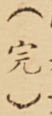（完）
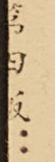第四版：
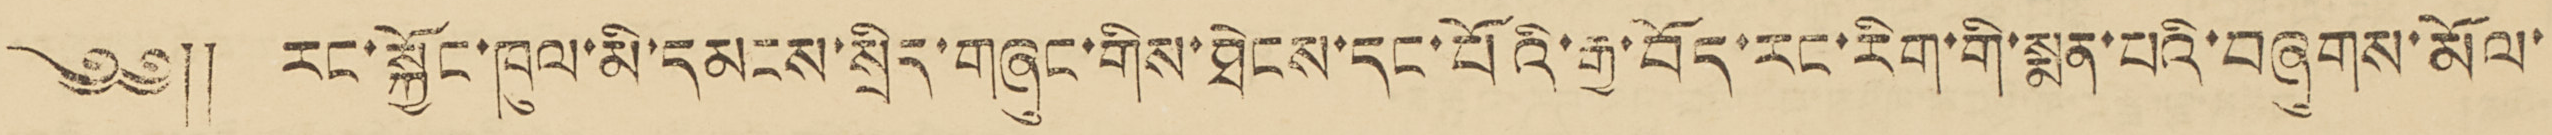༄༅༎ རང་སྐྱོང་ཁུལ་མི་དམངས་སྲིད་གཞུང་གིས་ཐེངས་དང་པོའི་རྒྱ་བོད་རང་རིག་གི་སྨན་པའི་བཞུགས་མོལ་
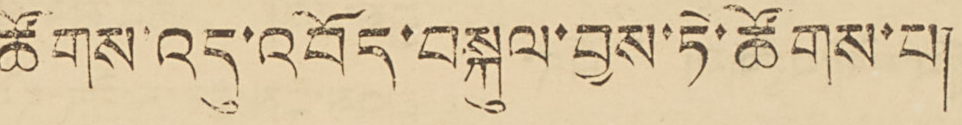ཚོགས་འདུ་འབོད་བསྐུལ་བྱས་ཏེ་ཚོགས་པ།
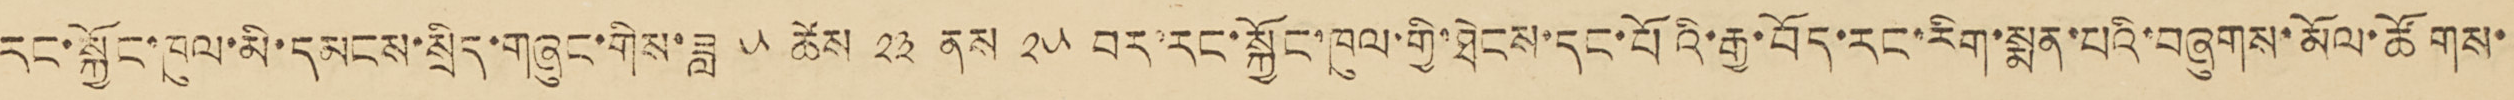རང་སྐྱོང་ཁུལ་མི་དམངས་སྲིད་གཞུང་གིས་ཟླ ༥ ཚེས ༢༣ ནས ༢༥ བར་རང་སྐྱོང་ཁུལ་གྱི་ཐེངས་དང་པོའི་རྒྱ་བོད་རང་རིག་སྨན་པའི་བཞུགས་མོལ་ཚོགས་
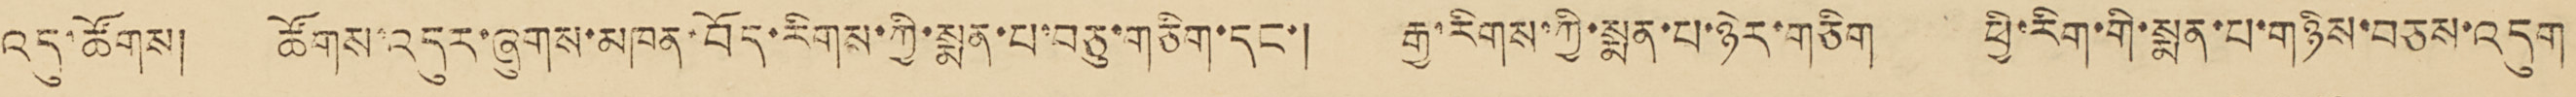འདུ་ཚོགས། ཚོགས་འདུར་ཞུགས་མཁན་བོད་རིགས་ཀྱི་སྨན་པ་བཅུ་གཅིག་དང་། རྒྱ་རིགས་ཀྱི་སྨན་པ་ཉེར་གཅིག ཕྱི་རིག་གི་སྨན་པ་གཉིས་བཅས་འདུག
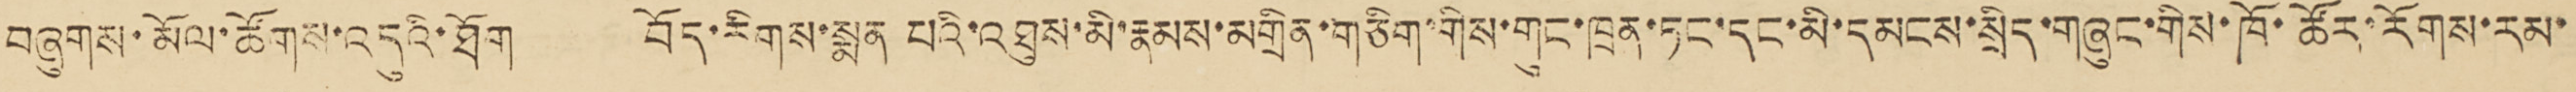བཞུགས་མོལ་ཚོགས་འདུའི་ཐོག བོད་རིགས་སྨན པའི་འཐུས་མི་རྣམས་མགྲིན་གཅིག་གིས་གུང་ཁྲན་ཏང་དང་མི་དམངས་སྲིད་གཞུང་གིས་ཁོ་ཚོར་རོགས་རམ་
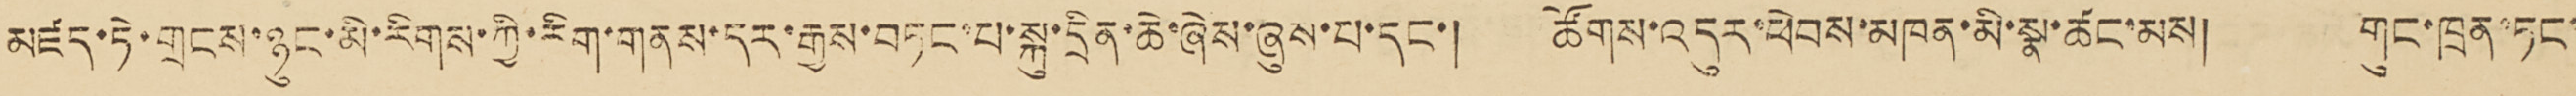མཛད་ཏེ་གྲངས་ཉུང་མི་རིགས་ཀྱི་རིག་གནས་དར་རྒྱས་བཏང་པ་སྐུ་དྲིན་ཆེ་ཞེས་ཞུས་པ་དང་། ཚོགས་འདུར་ཕེབས་མཁན་མི་སྣ་ཚང་མས། གུང་ཁྲན་ཏང་
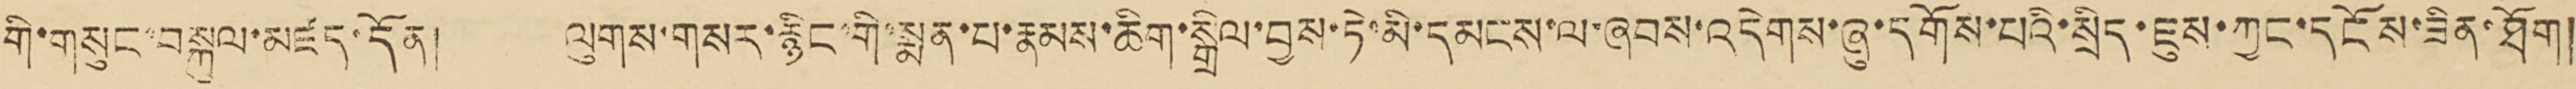གི་གསུང་བསྐུལ་མཛད་དོན། ལུགས་གསར་རྙིང་གི་སྨན་པ་རྣམས་ཆིག་སྒྲིལ་བྱས་ཏེ་མི་དམངས་ལ་ཞབས་འདེགས་ཞུ་དགོས་པའི་སྲིད་ཇུས་ཀྱང་དངོས་ཟིན་ཐོག།།
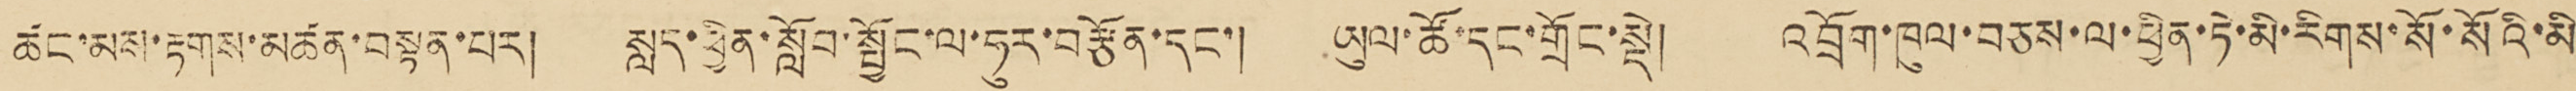ཚང་མས་རྟགས་མཚན་བསྟན་པར། སླད་ཕྱིན་སློབ་སྤྱང་ལ་ཧུར་བརྩོན་དང་། ཡུལ་ཚོ་དང་གྲོང་སྡེ། འབྲོག་ཁུལ་བཅས་ལ་ཕྱིན་ཏེ་མི་རིགས་སོ་སོའི་མི
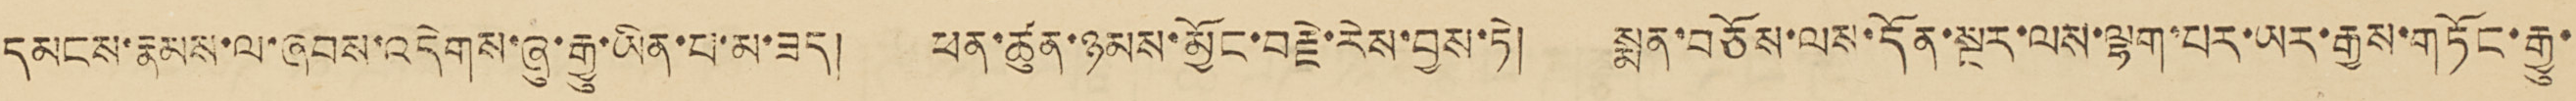དམངས་རྣམས་ལ་ཞབས་འདེགས་ཞུ་རྒྱུ་ཡིན་པ་མ་ཟད། ཕན་ཚུན་ཉམས་མྱོང་བརྗེ་རེས་བྱས་ཏེ། སྨན་བཅོས་ལས་དོན་སྔར་ལས་ལྷག་པར་ཡར་རྒྱས་གཏོང་རྒྱུ་
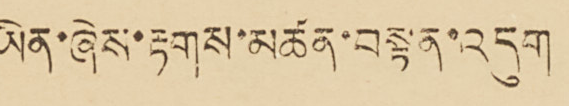ཡིན་ཞེས་རྟགས་མཚན་བསྟན་འདུག
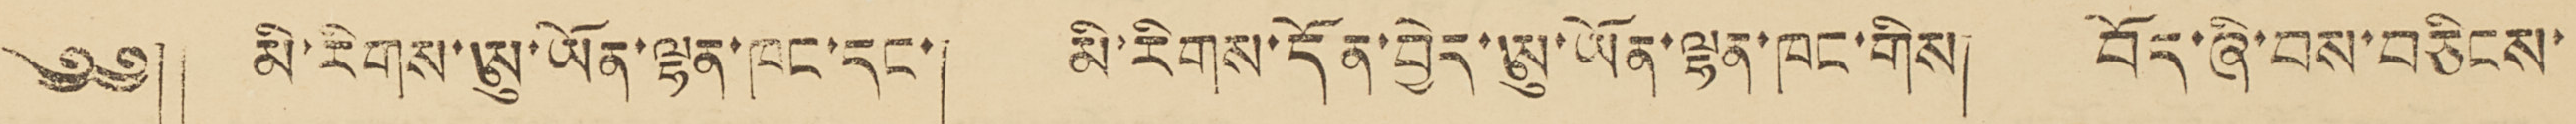༄༅༎ མི་རིགས་ཨུ་ཡོན་ལྷན་ཁང་དང་། མི་རིག་སྡོན་བྱེད་ཨུ་ཡོན་ལྷན་ཁང་གིས། བོད་ཞི་བས་བཅིངས་
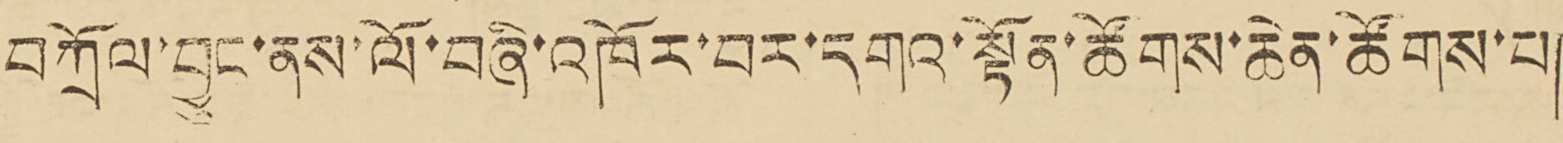བཀྲོལ་བྱུང་ནས་ལོ་བཞི་འཁོར་བར་དགའ་སྟོན་ཚོགས་ཆེན་ཚོགས་པ།
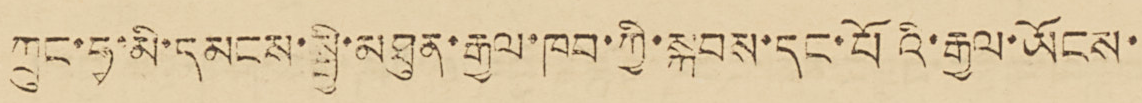ཀྲུང་ཧྭ་མི་དམངས་སྤྱི་མཐུན་རྒྱལ་ཁབ་ཀྱི་སྐབས་དང་པོའི་རྒྱལ་ཡོངས་
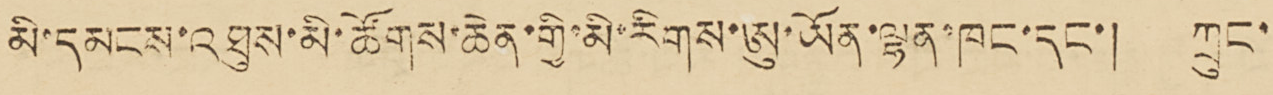མི་དམངས་འཐུས་མི་ཚོགས་ཆེན་གྱི་མི་རིགས་ཨུ་ཡོན་ལྷན་ཁང་དང་། ཀྲུང་
